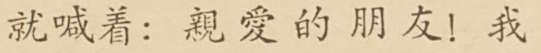就喊着：親愛的朋友！我
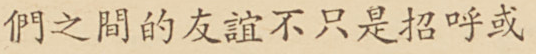們之間的友誼不只是招呼或
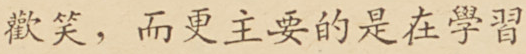歡笑，而更主要的是在學習
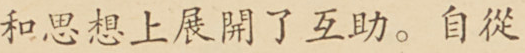和思想上展開了互助。自從
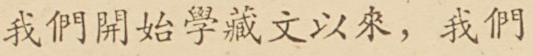我們開始學藏文以來，我們
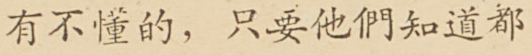有不懂的，只要他們知道都
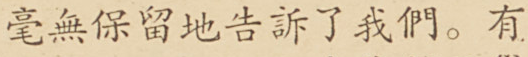毫無保留地告訴了我們。有
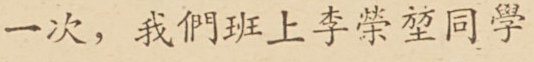一次，我們班上李榮堃同學
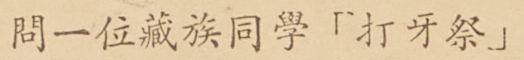問一位藏族同學「打牙祭」
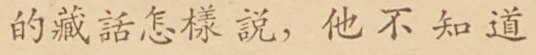的藏話怎樣說，他不知道
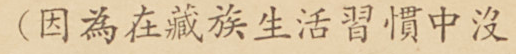（因爲在藏族生活習慣中沒
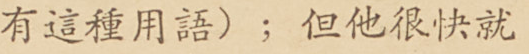有這種用語）；但他很快就
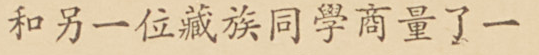和另一位藏族同學商量了一
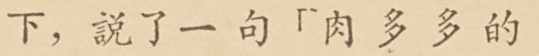下，說了一句「肉多多的
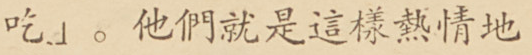吃」。他們就是這樣熱情地
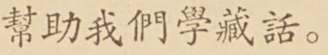幫助我們學藏話。
